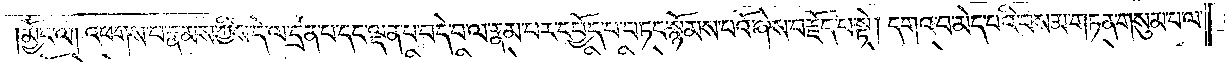མྱོང་ལ། འཕགས་པ་རྣམས་ཀྱིས་དེ་ལ་དྲན་པ་དང་ལྡན་པ་བདེ་བ་ལ་རྣམ་པར་དཔྱོད་པ་བཏང་སྙོམས་པའོ་ཞེས་བརྗོད་པ་སྟེ། དགའ་བ་མེད་པའི་བསམ་གཏན་གསུམ་པ་ལ་
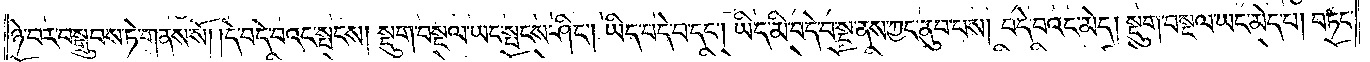ཉེ་བར་བསྒྲུབས་ཏེ་གནས་སོ། །དེ་བདེ་བའང་སྤངས། སྡུག་བསྔལ་ཡང་སྤངས་ཤིང༌། ཡིད་བདེ་བ་དང༌། ཡིད་མི་བདེ་བ་སྔ་ནས་ཀྱང་ནུབ་པས། བདེ་བའང་མེད། སྡུག་བསྔལ་ཡང་མེད་པ། བཏང་
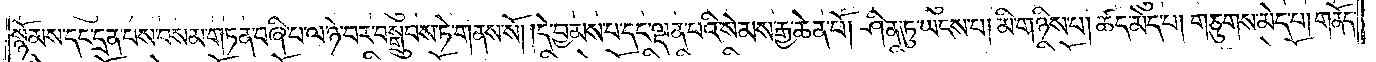སྙོམས་དང་དྲན་པས་བསམ་གཏན་བཞི་པ་ལ་ཉེ་བར་བསྒྲུབས་ཏེ་གནས་སོ། །དེ་བྱམས་པ་དང་ལྡན་པའི་སེམས་རྒྱ་ཆེན་པོ། ཤིན་ཏུ་ཡངས་པ། མི་གཉིས་པ། ཚད་མེད་པ། གཅུགས་མེད་པ། གནོད་
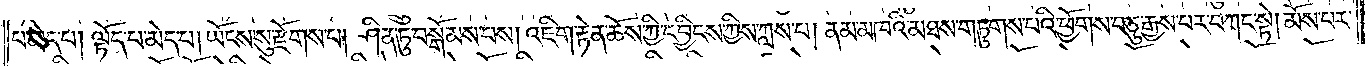པ་མེད་པ། ལྟོད་པ་མེད་པ། ཡོངས་སུ་རྫོགས་པ། ཤིན་ཏུ་བསྒོམས་པས། འཇིག་རྟེན་ཆོས་ཀྱི་དབྱིངས་ཀྱིས་ཀླས་པ། ནམ་མཁའི་མཐས་གཏུགས་པའི་ཕྱོགས་བཅུ་རྒྱས་པར་བཀང་སྟེ། མོས་པར་
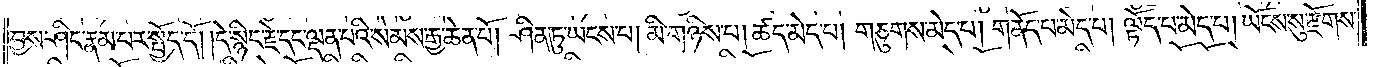བྱས་ཤིང་རྣམ་པར་སྤྱོད་དོ། །དེ་སྙིང་རྗེ་དང་ལྡན་པའི་སེམས་རྒྱ་ཆེན་པོ། ཤིན་ཏུ་ཡངས་པ། མི་གཉིས་པ། ཚད་མེད་པ། གཅུགས་མེད་པ། གནོད་པ་མེད་པ། ལྟོད་པ་མེད་པ། ཡོངས་སུ་རྫོགས་
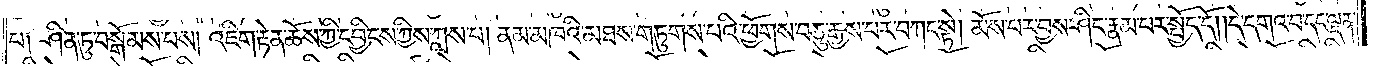པ༑ ཤིན་ཏུ་བསྒོམས་པས། འཇིག་རྟེན་ཆོས་ཀྱི་དབྱིངས་ཀྱིས་ཀླས་པ། ནམ་མཁའི་མཐའ་གཏུགས་པའི་ཕྱོགས་བཅུ་རྒྱས་པར་བཀང་སྟེ། མོས་པར་བྱས་ཤིང་རྣམ་པར་སྤྱོད་དོ། །དེ་དགའ་བ་དང་ལྡན་
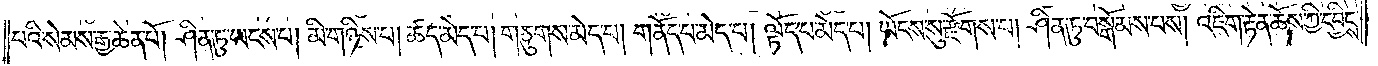པའི་སེམས་རྒྱ་ཆེན་པོ། ཤིན་ཏུ་ཡངས་པ། མི་གཉིས་པ། ཚད་མེད་པ། གཅུགས་མེད་པ། གནོད་པ་མེད་པ། ལྟོད་པ་མེད་པ། ཡོངས་སུ་རྫོགས་པ། ཤིན་ཏུ་བསྒོམས་པས། འཇིག་རྟེན་ཆོས་ཀྱི་དབྱིངས་
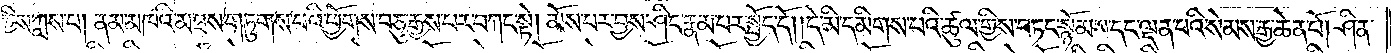ཀྱིས་ཀླས་པ། ནམ་མཁའི་མཐས་གཏུགས་པའི་ཕྱོགས་བཅུ་རྒྱས་པར་བཀང་སྟེ། མོས་པར་བྱས་ཤིང་རྣམ་པར་སྤྱོད་དོ། །དེ་མི་དམིགས་པའི་ཚུལ་གྱིས་བཏང་སྙོམས་དང་ལྡན་པའི་སེམས་རྒྱ་ཆེན་པོ། ཤིན་
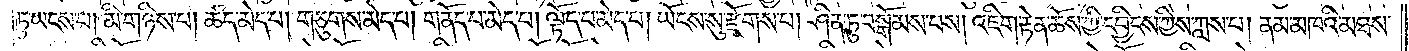ཏུ་ཡངས་པ། མི་གཉིས་པ། ཚད་མེད་པ། གཅུགས་མེད་པ། གནོད་པ་མེད་པ། ལྟོད་པ་མེད་པ། ཡོངས་སུ་རྫོགས་པ། ཤིན་ཏུ་བསྒོམས་པས། འཇིག་རྟེན་ཆོས་ཀྱི་དབྱིངས་ཀྱིས་ཀླས་པ། ནམ་མཁའི་མཐས་
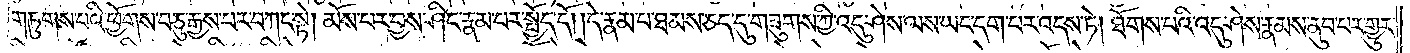གཏུགས་པའི་ཕྱོགས་བཅུ་རྒྱས་པར་བཀང་སྟེ། མོས་པར་བྱས་ཤིང་རྣམ་པར་སྤྱོད་དོ། །དེ་རྣམ་པ་ཐམས་ཅད་དུ་གཟུགས་ཀྱི་འདུ་ཤེས་ལས་ཡང་དག་པར་འདས་ཏེ། ཐོགས་པའི་འདུ་ཤེས་རྣམས་ནུབ་པར་གྱུར་
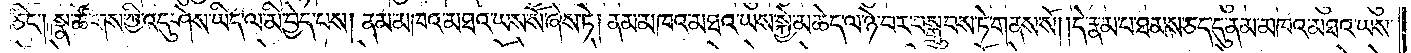ཅིང༌། སྣ་ཚོགས་ཀྱི་འདུ་ཤེས་ཡིད་ལ་མི་བྱེད་པས། ནམ་མཁའ་མཐའ་ཡས་སོ་ཞེས་ཏེ། ནམ་མཁའ་མཐའ་ཡས་སྐྱེ་མཆེད་ལ་ཉེ་བར་བསྒྲུབས་ཏེ་གནས་སོ། །དེ་རྣམ་པ་ཐམས་ཅད་དུ་ནམ་མཁའ་མཐའ་ཡས་
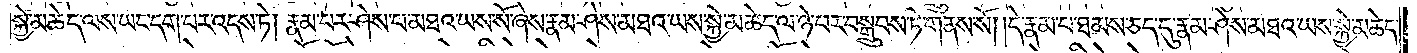སྐྱེ་མཆེད་ལས་ཡང་དག་པར་འདས་ཏེ། རྣམ་པར་ཤེས་པ་མཐའ་ཡས་སོ་ཞེས་རྣམ་ཤེས་མཐའ་ཡས་སྐྱེ་མཆེད་ལ་ཉེ་བར་བསྒྲུབས་ཏེ་གནས་སོ། །དེ་རྣམ་པ་ཐམས་ཅད་དུ་རྣམ་ཤེས་མཐའ་ཡས་སྐྱེ་མཆེད་
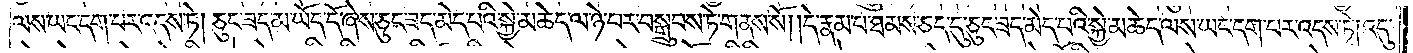ལས་ཡང་དག་པར་འདས་ཏེ། ཅུང་ཟད་མ་ཡོད་དོ་ཞེས་ཅུང་ཟད་མེད་པའི་སྐྱེ་མཆེད་ལ་ཉེ་བར་བསྒྲུབས་ཏེ་གནས་སོ། །དེ་རྣམ་པ་ཐམས་ཅད་དུ་ཅུང་ཟད་མེད་པའི་སྐྱེ་མཆེད་ལས་ཡང་དག་པར་འདས་ཏེ། འདུ་
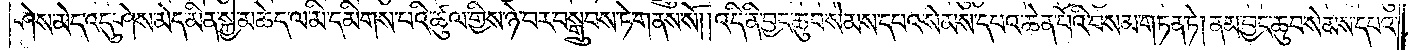ཤེས་མེད་འདུ་ཤེས་མེད་མིན་སྐྱེ་མཆེད་ལ་མི་དམིགས་པའི་ཚུལ་གྱིས་ཉེ་བར་བསྒྲུབས་ཏེ་གནས་སོ། །འདི་ནི་བྱང་ཆུབ་སེམས་དཔའ་སེམས་དཔའ་ཆེན་པོའི་བསམ་གཏན་ཏེ། ནམ་བྱང་ཆུབ་སེམས་དཔའ་
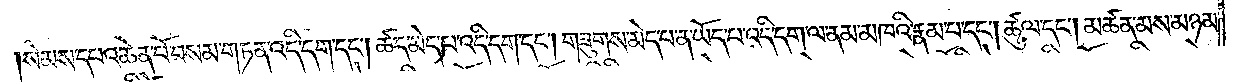སེམས་དཔའ་ཆེན་པོ་བསམ་གཏན་འདི་དག་དང༌། ཚད་མེད་པ་འདི་དག་དང༌། གཟུགས་མེད་པ་ན་ཡོད་པ་འདི་དག་ལ་ནམ་མཁའི་རྣམ་པ་དང༌། ཚུལ་དང༌། མཚན་མས་མཉམ་
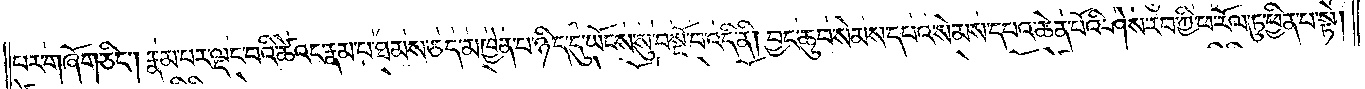པར་གཞོག་ཅིང༌། རྣམ་པར་ལྡང་པའི་ཚེའང་རྣམ་པ་ཐམས་ཅད་མཁྱེན་པ་ཉིད་དུ་ཡོངས་སུ་བསྔོ་བ་འདི་ནི། བྱང་ཆུབ་སེམས་དཔའ་སེམས་དཔའ་ཆེན་པོའི་ཤེས་རབ་ཀྱི་ཕ་རོལ་ཏུ་ཕྱིན་པ་སྟེ།
